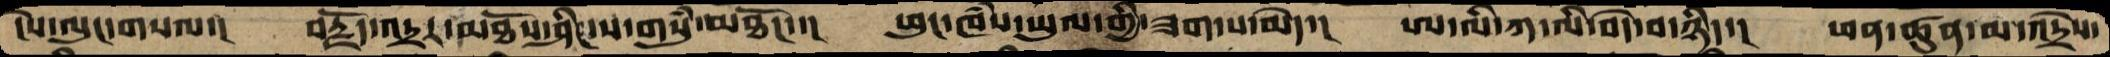ངེས་ལུང་གསལ་།  བརྗོད་འདྲར་མཐོས་ཤིང་ས་གསུཾ་མཐོང་་།  ཕུང་ཁཾས་ཡུལ་གྱི་ཟག་པ་མེད་།  ཨ་ལི་ཀ་ལི་བདེ་བ་ཉིད་། ཕན་ཚུན་མ་འདྲེས་
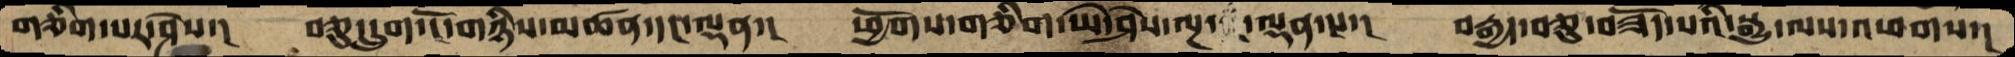གཅིག་པར་ཤེས་།  བཅུ་དྲུག་ངོ་གཉིས་མཚན་དང་ལྡན་།  ཕྱོགས་གཅིག་ཡེ་ཤེས་ལྔ་ལྡན་པ་།  བརྒྱད་བཅུ་བཟོད་པའི་སྒྱུ་ལས་འཕགས་།
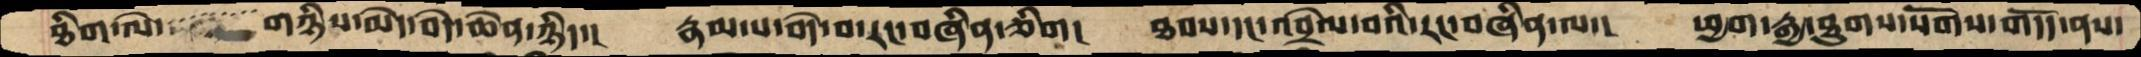ཐིག་ལེ་་་་་་་་་གཉིས་མེད་བདེ་ཆེན་ཉིད་།  རྣམ་པ་བདེ་བ་རང་བཞིན་ཅིག།  ཐབས་དང་འབྲེལ་བའི་རང་བཞིན་ལ་།  ཕྱག་རྒྱ་ཐུགས་སོགས་གདོད་ནས་
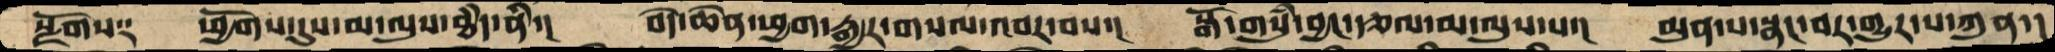སྫོགས༑   ཕྱོགས་དུས་མ་ལུས་ཐཾད་ནི་།  བདེ་ཆེན་ཕྱག་རྒྱར་གསལ་འབར་བས་།  སྒོ་གསུཾ་བྱང་རྩལ་མ་ལུས་པ་།   མུན་པ་སྣང་བར་གྱུར་པ་ཀུན་།
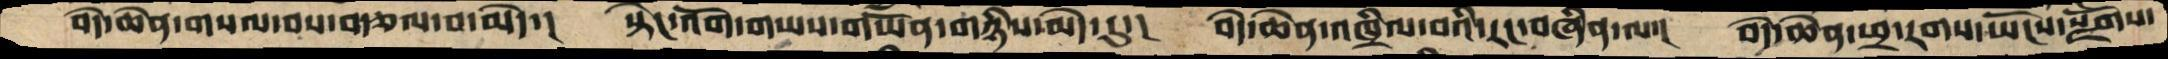བདེ་ཆེན་གསལ་བས་བརྩལ་བ་མེད་།  སྟེང་འོག་གཡས་གཡོན་གཉིས་མེད་དུ་།  བདེ་ཆེན་འཁྲིལ་བའི་རང་བཞིན་ལ་།  བདེ་ཆེན་ཕྲ་རགས་ཡོངས་སྫོགས་
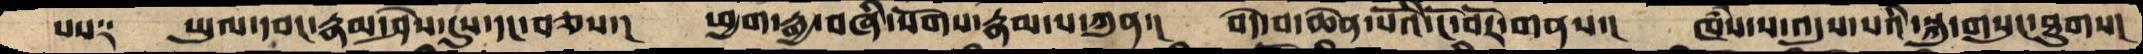པས༑    ཡུལ་དབང་རྣམ་ཤེས་དུས་དང་བཅས་།  ཕྱག་རྒྱ་བཞི་སོགས་རྣམ་པ་ཀུན་།  བདེ་བ་ཆེན་པོའི་ངོ་བོར་གནས་།  ཁཾས་ས་འདུས་པའི་སྐུ་གསུང་ཐུགས་།
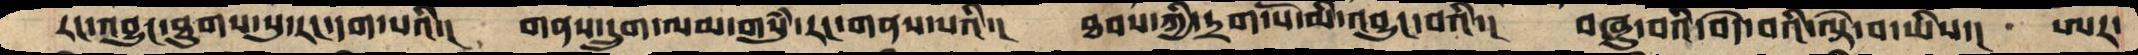རང་འབྱུང་ཐུགས་སུ་རང་དག་པའི་།  གནས་དྲུག་ལམ་གསུཾ་རང་གནས་པའི་།  ཐབས་ཀྱི་དྲག་པོ་མི་འབྱུང་བའི་།  བཞུ་བའི་བདེ་བའི་ལྟེ་བ་ཡིས་།  ཨར་
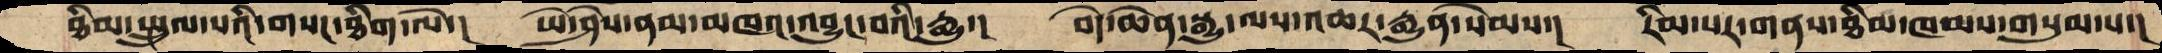ཐིམ་སྤྲུལ་པའི་གསང་ཐིག་ལེ་།  ཡེ་ཤེས་ནམ་མཁའ་འབྱུང་བའི་རྒྱུ་།  བདེ་ཆེན་སྒྱུ་ལས་འཆར་རྒྱུན་སེམས་།   རིམ་པར་གནས་ཐིམ་ཁམས་གསུམ་པ་།
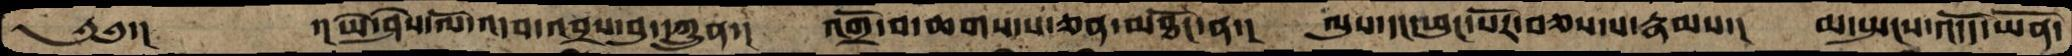༄༅་།       ་།ཡེ་ཤེེས་ལོ་འདབ་འབྲས་བུ་དཀྲུན་།   འགྲོ་བ་ཆགས་པ་ཅན་མཐོང་ན་།  ལུས་དང་ཕུང་པོར་བཅས་པ་རྣམས་།  མ་སྤངས་འདོད་ཡོན་
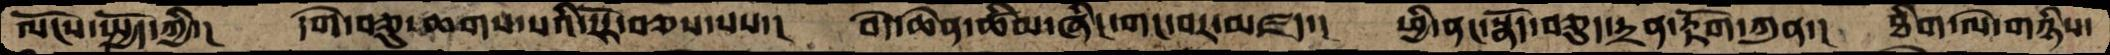ལོངས་སྤྱོད་ཀྱི་།   དགེ་བཅུ་ཆགས་པའི་རོར་བཅས་པས་།  བདེ་ཆེན་ཚིམ་ཞིང་གང་བར་མཛད་།  ཕྱི་ནང་སྣོད་བཅུད་དྲན་རྟོག་ཀུན་།  ཐིག་ལེ་གཉིས་
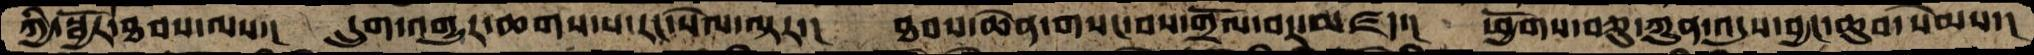ཀྱི་སྦྱོར་ཐབས་ལས་།   དྲུག་འགྱུར་ཆགས་པ་རང་སེལ་ལྟར་།  ཐབས་ཆེན་གསང་བས་གྲོལ་བར་མཛད་།  ཕྱོགས་བཅུ་ཀུན་འདུས་བྱང་ཆུབ་སེམས་།
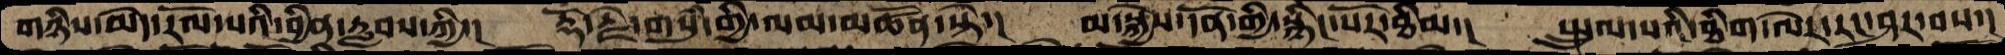གཉིས་མེད་རོལ་པའི་བྱིན་རླབས་ཀྱི་།  རྡོ་རྗེ་གསུམ་གྱི་ལམ་མཚོན་སྟེ་།  མ་སྐྱེས་དོན་གྱི་སྙིང་པོར་ཐིམ་།  སྤྲུལ་པའི་ཐིག་ལེར་རང་ཤར་བས་།
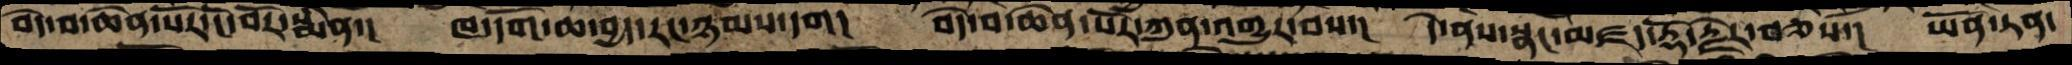བདེ་བ་ཆེན་པོར་ངོ་བོར་སྨིན་།  ཁ་དོག་ཆ་བྱད་རང་ཉམས་དག།  བདེ་བ་ཆེན་པོར་ཀུན་འགྱུར་བས་།  དེ་ནས་སྣང་མཛད་རྡོ་རྗེར་བཅས་།  ཡོན་ཏན་
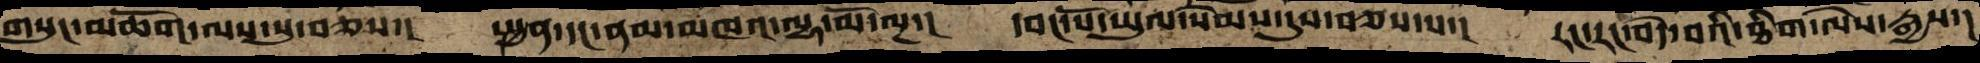གསུང་མཆོག་ལས་སུ་བཅས་།  སྤྱན་དང་ནམ་མཁའ་ལྷ་མོ་ལྔ་།  དབང་པོ་ཡུལ་སེམས་དུས་བཅས་པ་།  རང་རང་བདེ་བའི་ཐིག་ལེས་རྒྱས་།
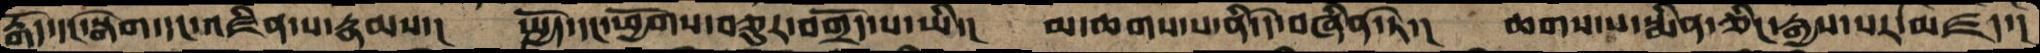རྒོད་དང་སྒེག་དང་འཛིན་པ་རྣམས་།  སྤྱོད་དང་ཕྱོགས་བཅུར་བགྲོད་པ་ཡི་།   མ་ཆགས་པ་ནི་དེ་བཞིན་ཏེ་།  ཆགས་པ་སྨིན་ཅིང་རྒྱས་པར་མཛད་།
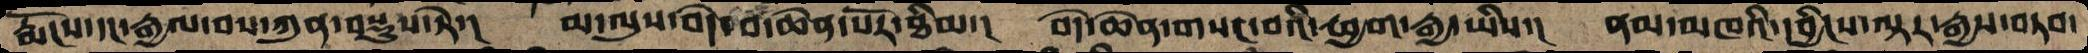རྨོངས་དང་རྒྱལ་བས་ཀུན་བསྡུས་ཏེ་།   མ་ལུས་བདེ་བ་ཆེན་པོར་ཐིམ་།  བདེ་ཆེན་གསང་བའི་ཕྱག་རྒྱ་ཡིས་།  ནམ་མཁའི་དབྱིངས་ལྟར་རྒྱས་བཏབ་
